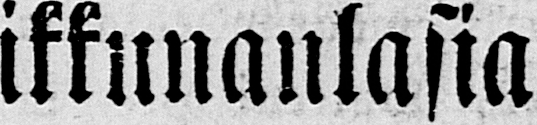ikkunanlasia
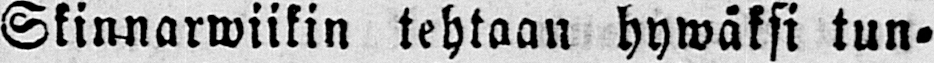Skinnarwiikin tehtaan hywäksi tun-
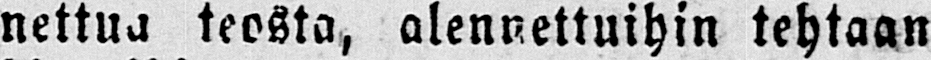nettua teosta, alennettuihin tehtaan
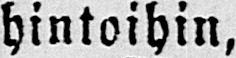hintoihin,
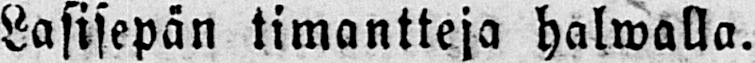Lasisepän timantteja halwalla.
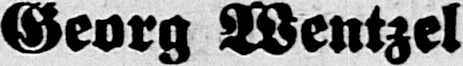Georg Wentzel.
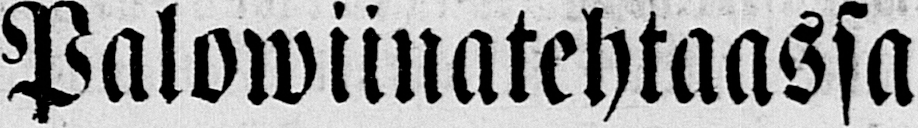Palowiinatehtaassa
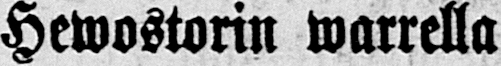Hewostorin warrella
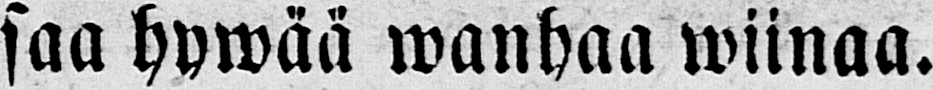saa hywää wanhaa wiinaa.
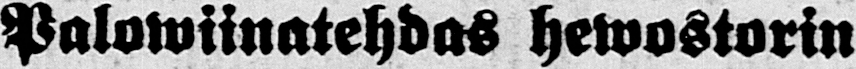Palowiinatehdas hewostorin
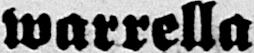warrella.
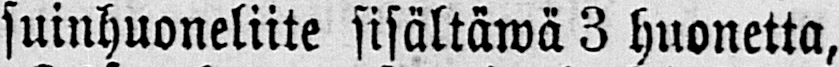Asuinhuoneliite sisältäwä 3 huonetta,
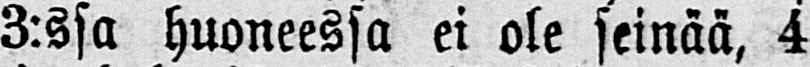3:ssa huoneessa ei ole seinää, 4
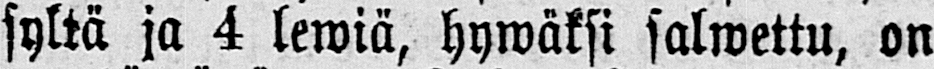syltä ja 4 lewiä, hywäksi salwettu, on
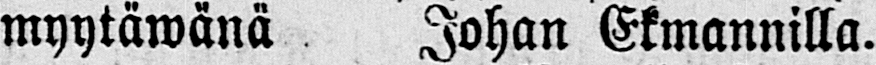myytäwänä Johan Ekmannilla.
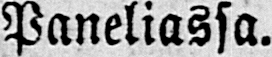Paneliassa.
